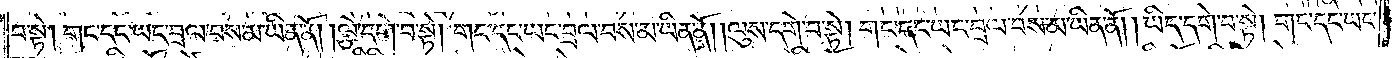བ་སྟེ། གང་དང་ཡང་བྲལ་བས་མ་ཡིན་ནོ། །ལྕེ་དགེ་བ་སྟེ། གང་དང་ཡང་བྲལ་བས་མ་ཡིན་ནོ། །ལུས་དགེ་བ་སྟེ། གང་དང་ཡང་བྲལ་བས་མ་ཡིན་ནོ། །ཡིད་དགེ་བ་སྟེ། གང་དང་ཡང་
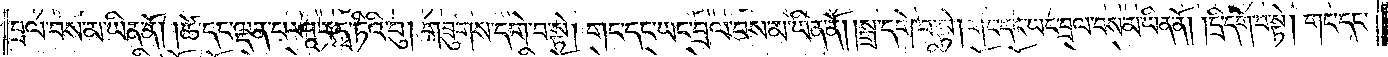བྲལ་བས་མ་ཡིན་ནོ། །ཚེ་དང་ལྡན་པ་ཤཱ་ར་དྭ་ཏིའི་བུ། གཟུགས་དགེ་བ་སྟེ། གང་དང་ཡང་བྲལ་བས་མ་ཡིན་ནོ། །སྒྲ་དགེ་བ་སྟེ། གང་དང་ཡང་བྲལ་བས་མ་ཡིན་ནོ། །དྲི་དགེ་བ་སྟེ། གང་དང་
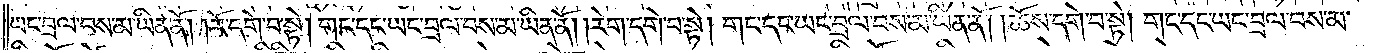ཡང་བྲལ་བས་མ་ཡིན་ནོ། །རོ་དགེ་བ་སྟེ། གང་དང་ཡང་བྲལ་བས་མ་ཡིན་ནོ། །རེག་དགེ་བ་སྟེ། གང་དང་ཡང་བྲལ་བས་མ་ཡིན་ནོ། །ཆོས་དགེ་བ་སྟེ། གང་དང་ཡང་བྲལ་བས་མ་
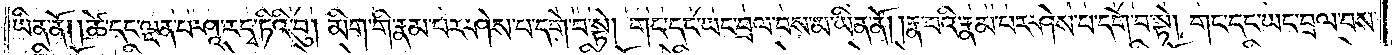ཡིན་ནོ། །ཚེ་དང་ལྡན་པ་ཤཱ་ར་དྭ་ཏིའི་བུ། མིག་གི་རྣམ་པར་ཤེས་པ་དགེ་བ་སྟེ། གང་དང་ཡང་བྲལ་བས་མ་ཡིན་ནོ། །རྣ་བའི་རྣམ་པར་ཤེས་པ་དགེ་བ་སྟེ། གང་དང་ཡང་བྲལ་བས་
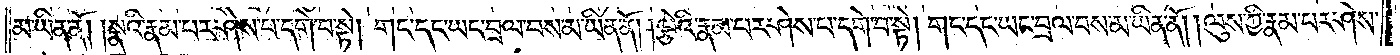མ་ཡིན་ནོ། །སྣའི་རྣམ་པར་ཤེས་པ་དགེ་བ་སྟེ། གང་དང་ཡང་བྲལ་བས་མ་ཡིན་ནོ། །ལྕེའི་རྣམ་པར་ཤེས་པ་དགེ་བ་སྟེ། གང་དང་ཡང་བྲལ་བས་མ་ཡིན་ནོ། །ལུས་ཀྱི་རྣམ་པར་ཤེས་
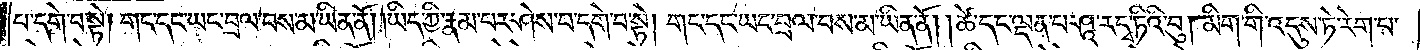པ་དགེ་བ་སྟེ། གང་དང་ཡང་བྲལ་བས་མ་ཡིན་ནོ། །ཡིད་ཀྱི་རྣམ་པར་ཤེས་པ་དགེ་བ་སྟེ། གང་དང་ཡང་བྲལ་བས་མ་ཡིན་ནོ། །ཚེ་དང་ལྡན་པ་ཤཱ་ར་དྭ་ཏིའི་བུ། མིག་གི་འདུས་ཏེ་རེག་པ་
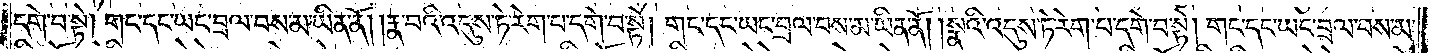དགེ་བ་སྟེ། གང་དང་ཡང་བྲལ་བས་མ་ཡིན་ནོ། །རྣ་བའི་འདུས་ཏེ་རེག་པ་དགེ་བ་སྟེ། གང་དང་ཡང་བྲལ་བས་མ་ཡིན་ནོ། །སྣའི་འདུས་ཏེ་རེག་པ་དགེ་བ་སྟེ། གང་དང་ཡང་བྲལ་བས་མ་
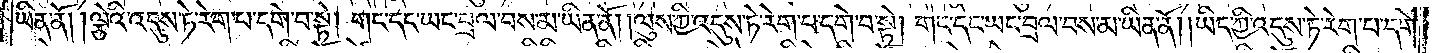ཡིན་ནོ། །ལྕེའི་འདུས་ཏེ་རེག་པ་དགེ་བ་སྟེ། གང་དང་ཡང་བྲལ་བས་མ་ཡིན་ནོ། །ལུས་ཀྱི་འདུས་ཏེ་རེག་པ་དགེ་བ་སྟེ། གང་དང་ཡང་བྲལ་བས་མ་ཡིན་ནོ། །ཡིད་ཀྱི་འདུས་ཏེ་རེག་པ་དགེ་
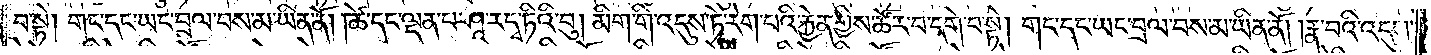བ་སྟེ། གང་དང་ཡང་བྲལ་བས་མ་ཡིན་ནོ། །ཚེ་དང་ལྡན་པ་ཤཱ་ར་དྭ་ཏིའི་བུ། མིག་གི་འདུས་ཏེ་རེག་པའི་རྐྱེན་གྱིས་ཚོར་བ་དགེ་བ་སྟེ། གང་དང་ཡང་བྲལ་བས་མ་ཡིན་ནོ། །རྣ་བའི་འདུས་
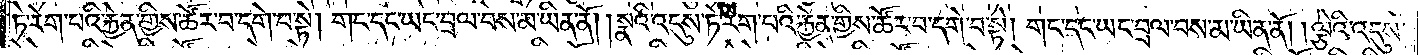ཏེ་རེག་པའི་རྐྱེན་གྱིས་ཚོར་བ་དགེ་བ་སྟེ། གང་དང་ཡང་བྲལ་བས་མ་ཡིན་ནོ། །སྣའི་འདུས་ཏེ་རེག་པའི་རྐྱེན་གྱིས་ཚོར་བ་དགེ་བ་སྟེ། གང་དང་ཡང་བྲལ་བས་མ་ཡིན་ནོ། །ལྕེའི་འདུས་
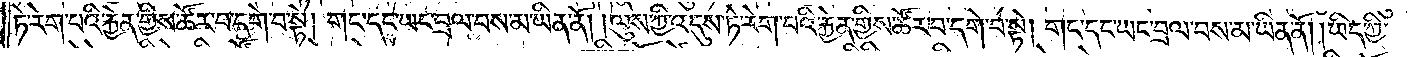ཏེ་རེག་པའི་རྐྱེན་གྱིས་ཚོར་བ་དགེ་བ་སྟེ། གང་དང་ཡང་བྲལ་བས་མ་ཡིན་ནོ། །ལུས་ཀྱི་འདུས་ཏེ་རེག་པའི་རྐྱེན་གྱིས་ཚོར་བ་དགེ་བ་སྟེ། གང་དང་ཡང་བྲལ་བས་མ་ཡིན་ནོ། །ཡིད་ཀྱི་
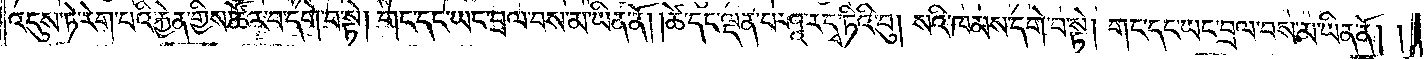འདུས་ཏེ་རེག་པའི་རྐྱེན་གྱིས་ཚོར་བ་དགེ་བ་སྟེ། གང་དང་ཡང་བྲལ་བས་མ་ཡིན་ནོ། །ཚེ་དང་ལྡན་པ་ཤཱ་ར་དྭ་ཏིའི་བུ། སའི་ཁམས་དགེ་བ་སྟེ། གང་དང་ཡང་བྲལ་བས་མ་ཡིན་ནོ། །
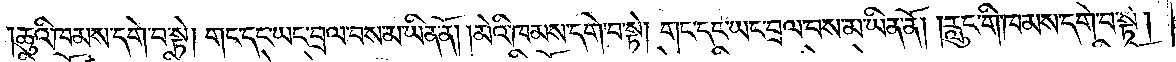ཆུའི་ཁམས་དགེ་བ་སྟེ། གང་དང་ཡང་བྲལ་བས་མ་ཡིན་ནོ། །མེའི་ཁམས་དགེ་བ་སྟེ། གང་དང་ཡང་བྲལ་བས་མ་ཡིན་ནོ། །རླུང་གི་ཁམས་དགེ་བ་སྟེ།
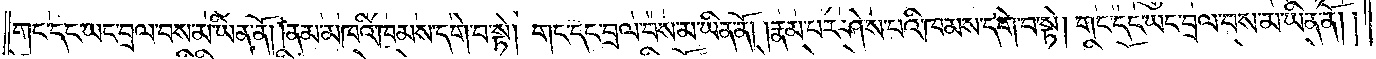གང་དང་ཡང་བྲལ་བས་མ་ཡིན་ནོ། །ནམ་མཁའི་ཁམས་དགེ་བ་སྟེ། གང་དང་ཡང་བྲལ་བས་མ་ཡིན་ནོ། །རྣམ་པར་ཤེས་པའི་ཁམས་དགེ་བ་སྟེ། གང་དང་ཡང་བྲལ་བས་མ་ཡིན་ནོ། །
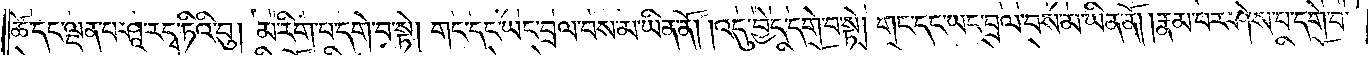ཚེ་དང་ལྡན་པ་ཤཱ་ར་དྭ་ཏིའི་བུ། མ་རིག་པ་དགེ་བ་སྟེ། གང་དང་ཡང་བྲལ་བས་མ་ཡིན་ནོ། །འདུ་བྱེད་དགེ་བ་སྟེ། གང་དང་ཡང་བྲལ་བས་མ་ཡིན་ནོ། །རྣམ་པར་ཤེས་པ་དགེ་བ་
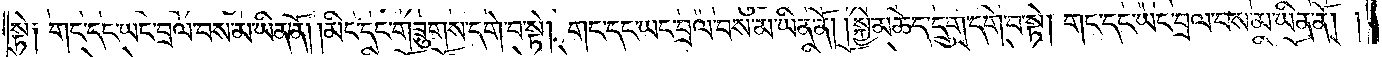སྟེ། གང་དང་ཡང་བྲལ་བས་མ་ཡིན་ནོ། །མིང་དང་གཟུགས་དགེ་བ་སྟེ། གང་དང་ཡང་བྲལ་བས་མ་ཡིན་ནོ། །སྐྱེ་མཆེད་དྲུག་དགེ་བ་སྟེ། གང་དང་ཡང་བྲལ་བས་མ་ཡིན་ནོ། །
